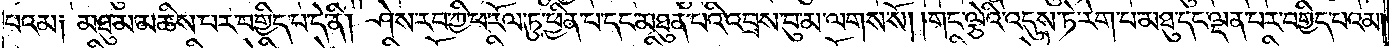པའམ༑ མཐུ་མ་མཆིས་པར་བགྱིད་པ་དེ་ནི། ཤེས་རབ་ཀྱི་ཕ་རོལ་ཏུ་ཕྱིན་པ་དང་མཐུན་པའི་འབྲས་བུ་མ་ལགས་སོ། །གང་ལྕེའི་འདུས་ཏེ་རེག་པ་མཐུ་དང་ལྡན་པར་བགྱིད་པའམ།
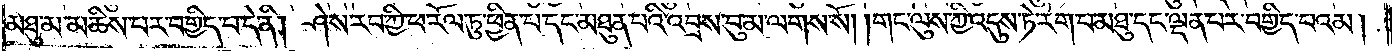མཐུ་མ་མཆིས་པར་བགྱིད་པ་དེ་ནི། ཤེས་རབ་ཀྱི་ཕ་རོལ་ཏུ་ཕྱིན་པ་དང་མཐུན་པའི་འབྲས་བུ་མ་ལགས་སོ། །གང་ལུས་ཀྱི་འདུས་ཏེ་རེག་པ་མཐུ་དང་ལྡན་པར་བགྱིད་པའམ།
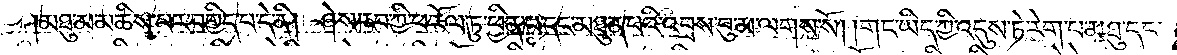མཐུ་མ་མཆིས་པར་བགྱིད་པ་དེ་ནི། ཤེས་རབ་ཀྱི་ཕ་རོལ་ཏུ་ཕྱིན་པ་དང་མཐུན་པའི་འབྲས་བུ་མ་ལགས་སོ། །གང་ཡིད་ཀྱི་འདུས་ཏེ་རེག་པ་མཐུ་དང་
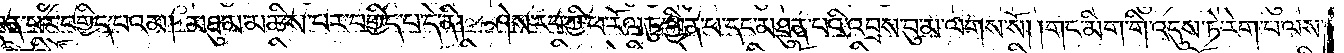ལྡན་པར་བགྱིད་པའམ། མཐུ་མ་མཆིས་པར་བགྱིད་པ་དེ་ནི། ཤེས་རབ་ཀྱི་ཕ་རོལ་ཏུ་ཕྱིན་པ་དང་མཐུན་པའི་འབྲས་བུ་མ་ལགས་སོ། །གང་མིག་གི་འདུས་ཏེ་རེག་པ་ལས་
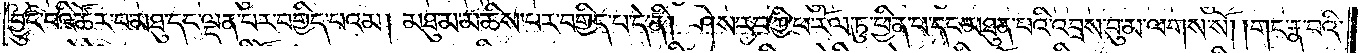བྱུང་བའི་ཚོར་བ་མཐུ་དང་ལྡན་པར་བགྱིད་པའམ། མཐུ་མ་མཆིས་པར་བགྱིད་པ་དེ་ནི། ཤེས་རབ་ཀྱི་ཕ་རོལ་ཏུ་ཕྱིན་པ་དང་མཐུན་པའི་འབྲས་བུ་མ་ལགས་སོ། །གང་རྣ་བའི་
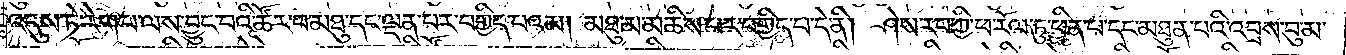འདུས་ཏེ་རེག་པ་ལས་བྱུང་བའི་ཚོར་བ་མཐུ་དང་ལྡན་པར་བགྱིད་པའམ། མཐུ་མ་མཆིས་པར་བགྱིད་པ་དེ་ནི། ཤེས་རབ་ཀྱི་ཕ་རོལ་ཏུ་ཕྱིན་པ་དང་མཐུན་པའི་འབྲས་བུ་མ་
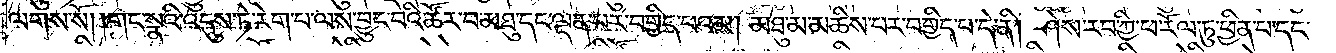ལགས་སོ། །གང་སྣའི་འདུས་ཏེ་རེག་པ་ལས་བྱུང་བའི་ཚོར་བ་མཐུ་དང་ལྡན་པར་བགྱིད་པའམ། མཐུ་མ་མཆིས་པར་བགྱིད་པ་དེ་ནི། ཤེས་རབ་ཀྱི་ཕ་རོལ་ཏུ་ཕྱིན་པ་དང་
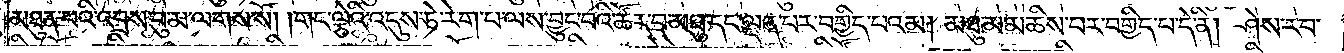མཐུན་པའི་འབྲས་བུ་མ་ལགས་སོ། །གང་ལྕེའི་འདུས་ཏེ་རེག་པ་ལས་བྱུང་བའི་ཚོར་བ་མཐུ་དང་ལྡན་པར་བགྱིད་པའམ། མཐུ་མ་མཆིས་པར་བགྱིད་པ་དེ་ནི། ཤེས་རབ་
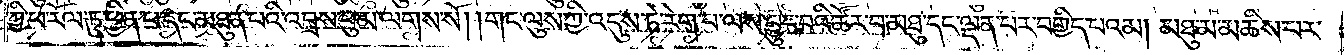ཀྱི་ཕ་རོལ་ཏུ་ཕྱིན་པ་དང་མཐུན་པའི་འབྲས་བུ་མ་ལགས་སོ། །གང་ལུས་ཀྱི་འདུས་ཏེ་རེག་པ་ལས་བྱུང་བའི་ཚོར་བ་མཐུ་དང་ལྡན་པར་བགྱིད་པའམ། མཐུ་མ་མཆིས་པར་
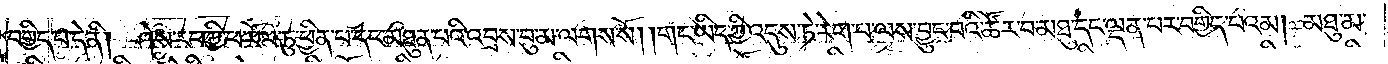བགྱིད་པ་དེ་ནི། ཤེས་རབ་ཀྱི་ཕ་རོལ་ཏུ་ཕྱིན་པ་དང་མཐུན་པའི་འབྲས་བུ་མ་ལགས་སོ། །གང་ཡིད་ཀྱི་འདུས་ཏེ་རེག་པ་ལས་བྱུང་བའི་ཚོར་བ་མཐུ་དང་ལྡན་པར་བགྱིད་པའམ། མཐུ་མ་
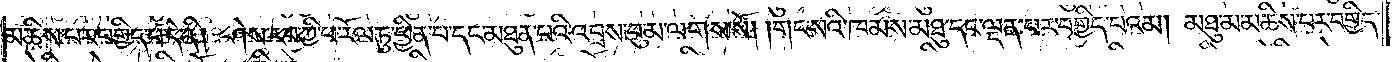མཆིས་པར་བགྱིད་པ་དེ་ནི། ཤེས་རབ་ཀྱི་ཕ་རོལ་ཏུ་ཕྱིན་པ་དང་མཐུན་པའི་འབྲས་བུ་མ་ལགས་སོ། །གང་སའི་ཁམས་མཐུ་དང་ལྡན་པར་བགྱིད་པའམ། མཐུ་མ་མཆིས་པར་བགྱིད་
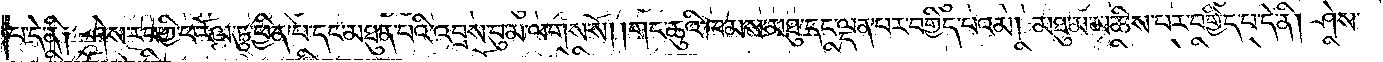པ་དེ་ནི༑ ཤེས་རབ་ཀྱི་ཕ་རོལ་ཏུ་ཕྱིན་པ་དང་མཐུན་པའི་འབྲས་བུ་མ་ལགས་སོ། །གང་ཆུའི་ཁམས་མཐུ་དང་ལྡན་པར་བགྱིད་པའམ། མཐུ་མ་མཆིས་པར་བགྱིད་པ་དེ་ནི། ཤེས་
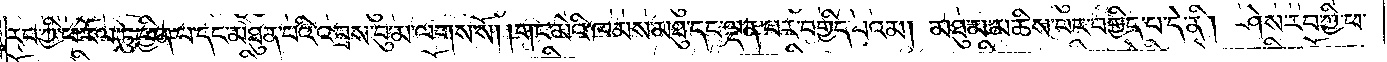རབ་ཀྱི་ཕ་རོལ་ཏུ་ཕྱིན་པ་དང་མཐུན་པའི་འབྲས་བུ་མ་ལགས་སོ། །གང་མེའི་ཁམས་མཐུ་དང་ལྡན་པར་བགྱིད་པའམ། མཐུ་མ་མཆིས་པར་བགྱིད་པ་དེ་ནི། ཤེས་རབ་ཀྱི་ཕ་
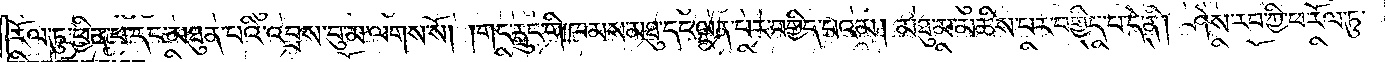རོལ་ཏུ་ཕྱིན་པ་དང་མཐུན་པའི་འབྲས་བུ་མ་ལགས་སོ། །གང་རླུང་གི་ཁམས་མཐུ་དང་ལྡན་པར་བགྱིད་པའམ། མཐུ་མ་མཆིས་པར་བགྱིད་པ་དེ་ནི། ཤེས་རབ་ཀྱི་ཕ་རོལ་ཏུ་
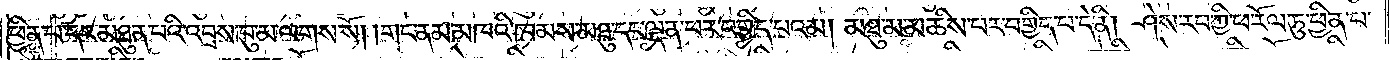ཕྱིན་པ་དང་མཐུན་པའི་འབྲས་བུ་མ་ལགས་སོ། །གང་ནམ་མཁའི་ཁམས་མཐུ་དང་ལྡན་པར་བགྱིད་པའམ། མཐུ་མ་མཆིས་པར་བགྱིད་པ་དེ་ནི། ཤེས་རབ་ཀྱི་ཕ་རོལ་ཏུ་ཕྱིན་པ་
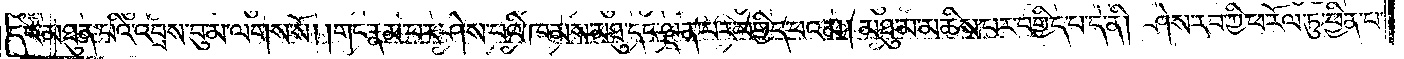དང་མཐུན་པའི་འབྲས་བུ་མ་ལགས་སོ། །གང་རྣམ་པར་ཤེས་པའི་ཁམས་མཐུ་དང་ལྡན་པར་བགྱིད་པའམ། མཐུ་མ་མཆིས་པར་བགྱིད་པ་དེ་ནི། ཤེས་རབ་ཀྱི་ཕ་རོལ་ཏུ་ཕྱིན་པ་
